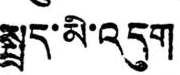སྤྲད་མི་འདུག
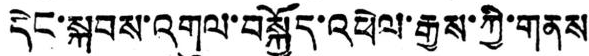དེང་སྐབས་འགུལ་བསྐྱོད་འཕེལ་རྒྱས་ཀྱི་གནས་
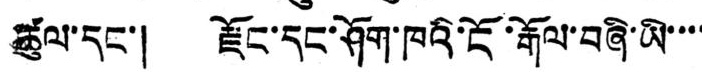ཚུལ་དང་། རྫོང་དང་ཤོག་ཁའི་ངོ་རྒོལ་བཞི་ཡི་་་་
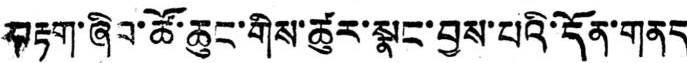བརྟག་ཞིབ་ཚོ་ཆུང་གིས་ཚུར་སྣང་བྱས་པའི་དོན་གནད་
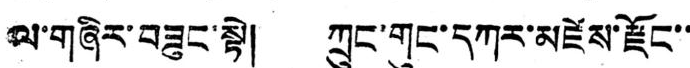ལ་གཞིར་བཟུང་སྟེ། ཀྲུང་གུང་དཀར་མཛེས་རྫོང་་་
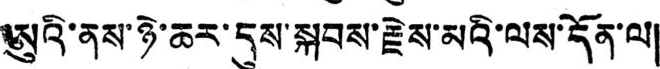ཨུའི་ནས་ཉེ་ཆར་དུས་སྐབས་རྗེས་མའི་ལས་དོན་ལ།
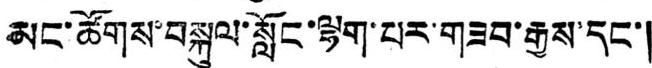མང་ཚོགས་བསྐུལ་སློང་ལྷག་པར་གཟབ་རྒྱས་དང་།
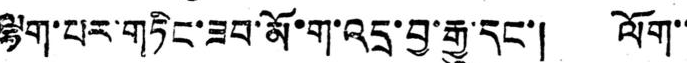ལྷག་པར་གཏིང་ཟབ་མོ་ག་འདྲ་བྱ་རྒྱུ་དང་། ལོག་་
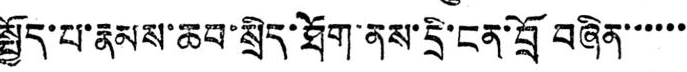སྤྱོད་པ་རྣམས་ཆབ་སྲིད་ཐོག་ནས་དྲི་ངན་བྲོ བཞིན་་་་་་
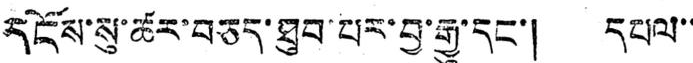དངོས་སུ་ཚར་བཅད་ཐུབ་པར་བྱ་རྒྱུ་དང་། དཔལ་་
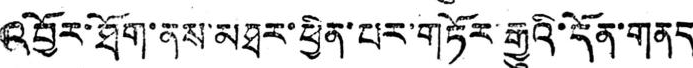འབྱོར་ཐོག་ནས་མཐར་ཕྱིན་པར་གཏོར་རྒྱུའི་དོན་གནད
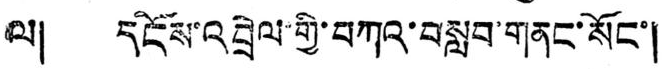ལ། དངོས་འབྲེལ་གྱི་བཀའ་བསླབ་གནང་སོང་།
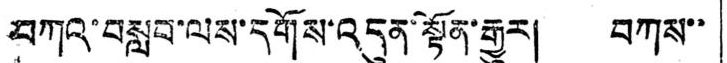བཀའ་བསླབ་ལས་དགོས་འདུན་སྟོན་རྒྱུར། བཀས་་
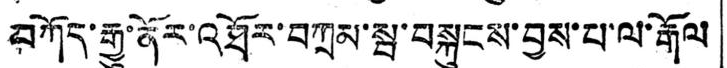བཀོད་རྒྱུ་ནོར་འཐོར་བཀྲམ་སྦ་བསྐུངས་བྱས་པ་ལ་རྒོལ
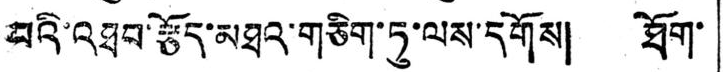བའི་འཐབ་རྩོད་མཐར་གཅིག་ཏུ་ལས་དགོས། ཐོག་
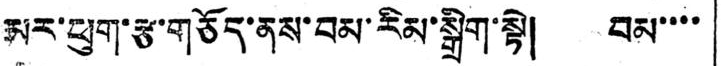མར་ཕུག་རྩ་གཅོད་ནས་བམ་རིམ་སྒྲིག་སྟེ། བམ་་་་
